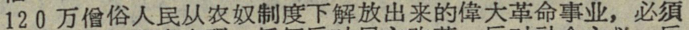120万僧俗人民从农奴制度下解放出来的偉大革命事业，必須
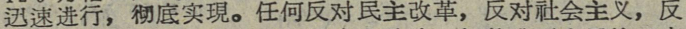迅速进行，彻底实現。任何反对民主改革，反对社会主义，反
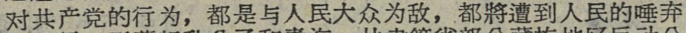对共产党的行为，都是与人民大众为敌，都將遭到人民的唾弃
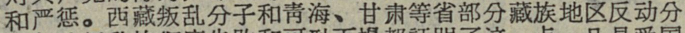和严惩。西藏叛乱分子和靑海、甘肃等省部分藏族地区反动分
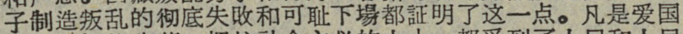子制造叛乱的彻底失敗和可耻下場都証明了这一点。凡是爱国
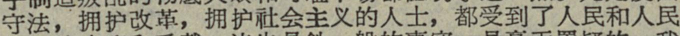守法，拥护改革，拥护社会主义的人士，都受到了人民和人民
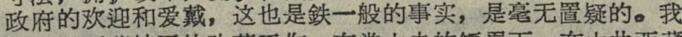政府的欢迎和爱戴，这也是鉄一般的事实，是毫无置疑的。我
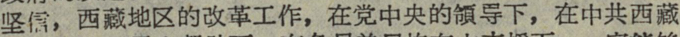坚信，西藏地区的改革工作，在党中央的領导下，在中共西藏
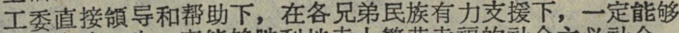工委直接領导和幫助下，在各兄弟民族有力支援下，一定能够
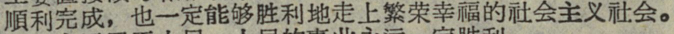順利完成，也一定能够胜利地走上繁索幸福的社会主义社会。
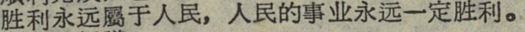胜利永远屬于人民，人民的事业永远一定胜利。
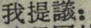我提議：
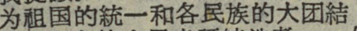为祖国的統一和各民族的大团結
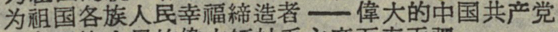为祖国各族人民幸福締造者——偉大的中国共产党
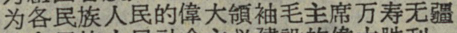为各民族人民的偉大領袖毛主席万寿无疆
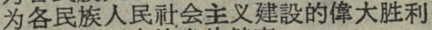为各民族人民社会主义建設的偉大胜利
